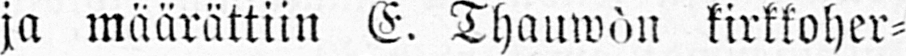ja määrättiin E. Thauwòn kirkkoher-
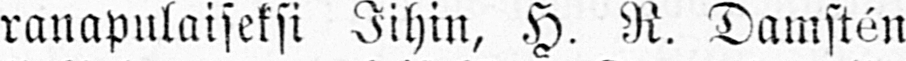ranapulaiseksi Iihin, H. R. Damstén
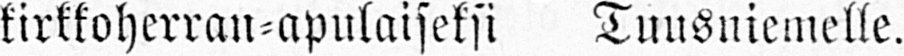kirkkoherran-apulaiseksi Tuusniemelle.
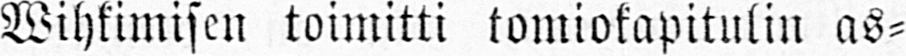Wihkimisen toimitti tomiokapitulin as-
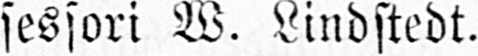sessori W. Lindstedt.
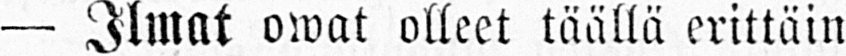— Ilmat owat olleet täällä erittäin
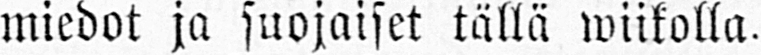miedot ja suojaiset tällä wiikolla.
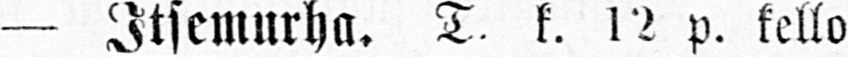— Itsemurha. T. k. 12 p. kello
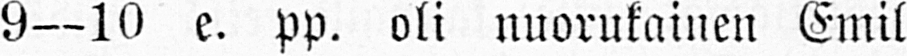9—10 e. pp. oli nuorukainen Emil
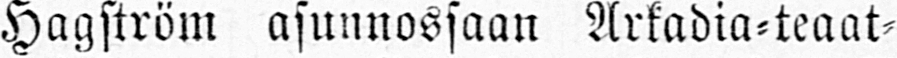Hagström asunnossaan Arkadia-teaat-
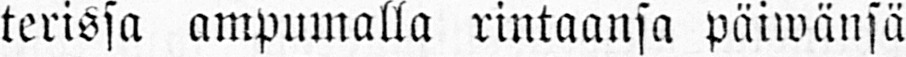terissa ampumalla rintaansa päiwänsä
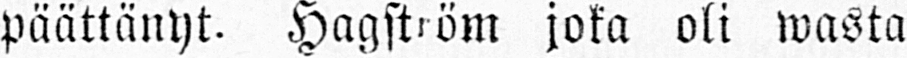päättänyt. Hagström joka oli wasta
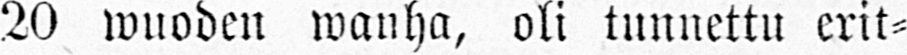20 wuoden wanha, oli tunnettu erit-
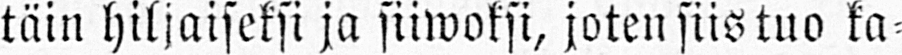täin hiljaiseksi ja siiwoksi, joten siis tuo ka-
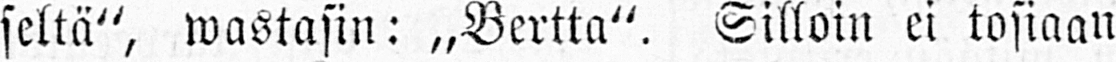seltä", wastasin: „Bertta". Silloin ei tosiaan
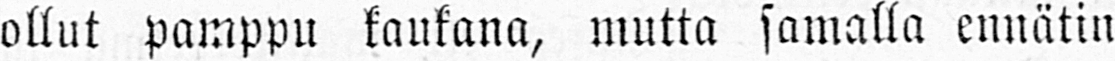ollut pamppu kaukana, mutta samalla ennätin
